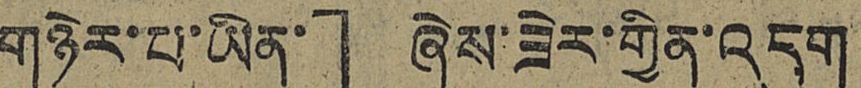གཉེར་པ་ཡིན།」 ཞེས་ཟེར་གྱིན་འདུག
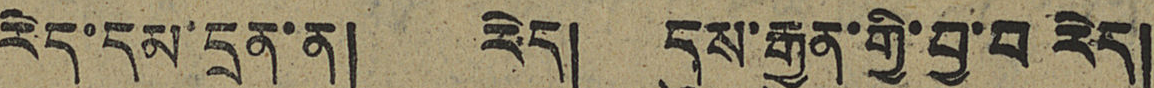རེད་དམ་དྲན་ན། རེད། དུས་རྒྱུན་གྱི་བྱ་བ རེད།
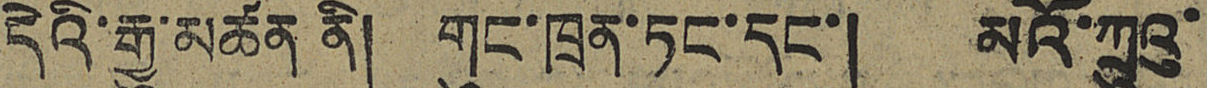དེའི་རྒྱུ་མཚན ནི། གུང་ཁྲན་ཏང་དང་། མའོ་ཀྲུའུ་
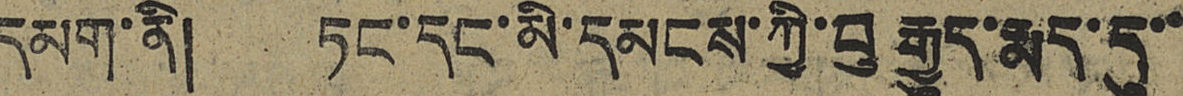དམག་ནི། ཏང་དང་མི་དམངས་ཀྱི་བུ རྒྱུད་རྨད་དུ་་
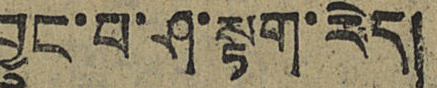བྱུང་བ་ཤ་སྟག་རེད།
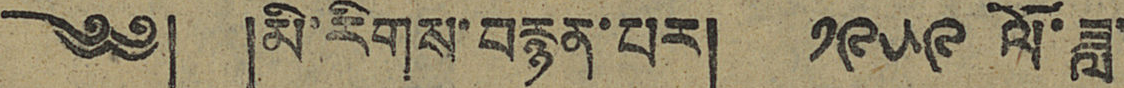༄༅། །མི་རིགས་བརྙན་པར། ༡༩༥༩ ལོ་ཟླ་
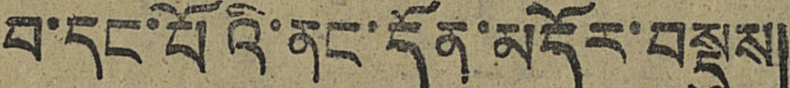བ་དང་པོའི་ནང་དོན་མདོར་བསྡུས།
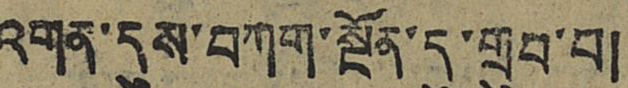འགན་དུས་བཀག་སྔོན་དུ་གྲུབ་བ།
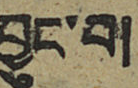བྱུང་བ།
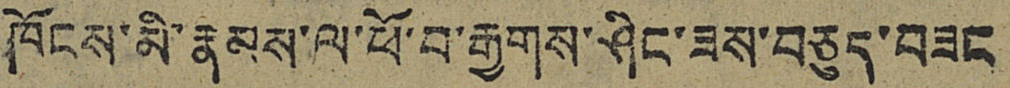ཁོངས་མི་རྣམས་ལ་ཕོ་བ་རྒྱགས་ཤིང་ཟས་བཅུད་བཟང
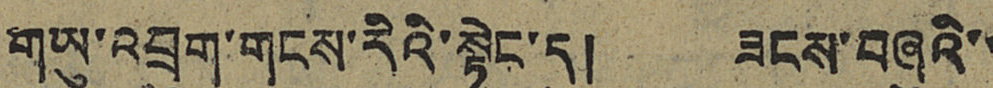གཡུ་འབྲུག་གངས་རིའི་སྟེང་དུ། ཟངས་བཞུའི་་
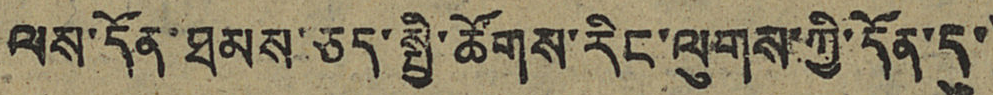ལས་དོན་ཐམས་ཅད་སྤྱི་ཚོགས་རིང་ལུགས་ཀྱི་དོན་དུ་
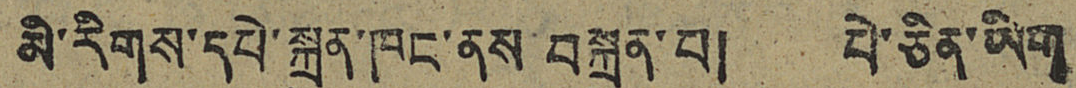མི་རིགས་དཔེ་སྐྲུན་ཁང་ནས བསྐྲུན་པ། པེ་ཅིན་ཡིག
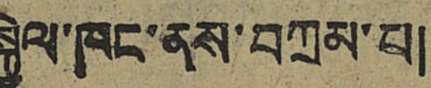སྐྱེལ་ཁང་ནས་བཀྲམ་པ།
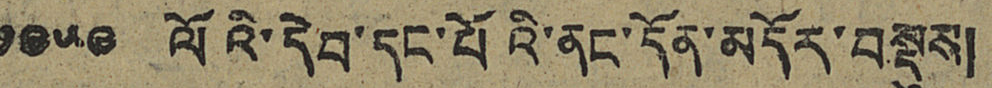༡༩༥༩ ལོའི་དེབ་དང་པོའི་ནང་དོན་མདོར་བསྡུས།
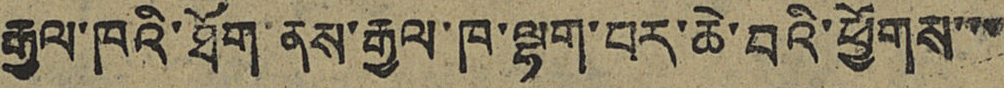རྒྱལ་ཁའི་ཐོག་ནས་རྒྱལ་ཁ་ལྷག་པར་ཆེ་བའི་ཕྱོགས་་་
